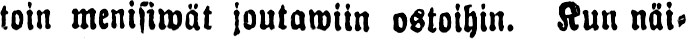toin menisiwät joutawiin ostoihin. Kun näi-
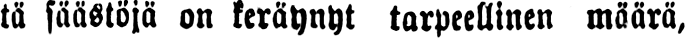tä säästöjä on keräynyt tarpeellinen määrä,
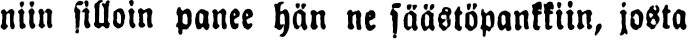niin silloin panee hän ne säästöpankkiin, josta
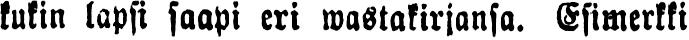kukin lapsi saapi eri wastakirjansa. Esimerkki
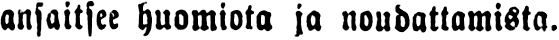ansaitsee huomiota ja noudattamista.
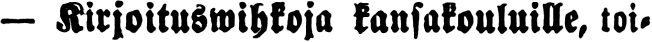— Kirjoituswihkoja kansakouluille, toi-
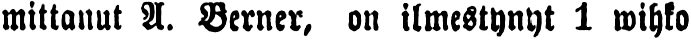mittanut A. Berner, on ilmestynyt 1 wihko
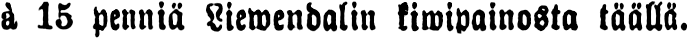L 15 penniä Liewendalin kiwipainosta täällä.
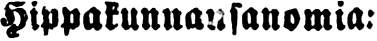Hippakunnansanomia:
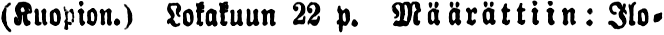(Kuopion.) Lokakuun 22 p. Määrättiin: Ilo-
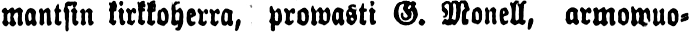mantsin kirkkoherra, prowasti G. Monell, armowuo-
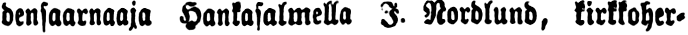densaarnaaja Hankasalmella A. Nordlund, kirkkoher-
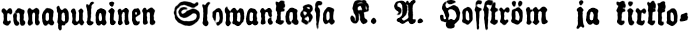ranapulainen Slowankassa K. A. Hofström ja kirkko-
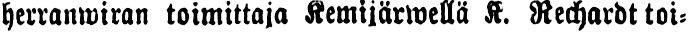herranwiran toimittaja Kemijärwellä K. Rechardt toi-
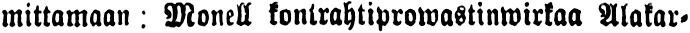mittamaan : Monell kontrahtiprowastinwirkaa Alakar-
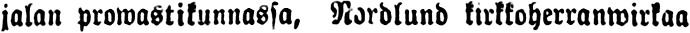jalan prowastikunnassa, Nordlund kirkkoherranwirkaa
